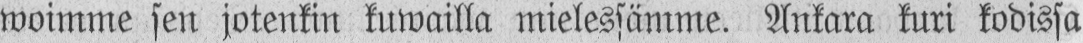woimme sen jotenkin kuwailla mielessämme. Ankara kuri kodissa
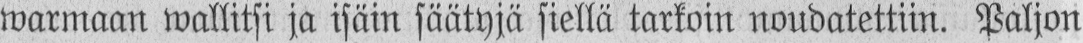warmaan wallitsi ja isäin säätyjä siellä tarkoin noudatettiin. Paljon
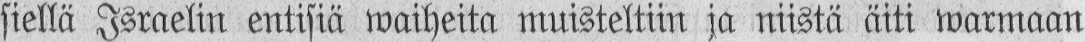siellä Israelin entisiä waiheita muisteltiin ja niistä äiti warmaan
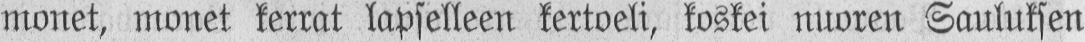monet, monet kerrat lapselleen kertoeli, koskei nuoren Sauluksen
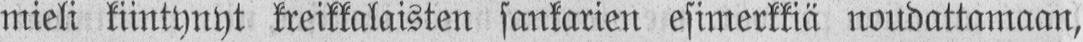mieli kiintynyt kreikkalaisten sankarien esimerkkiä noudattamaan,
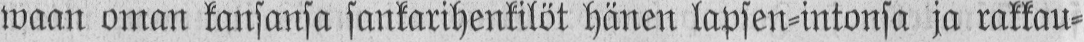waan oman kansansa sankarihenkilöt hänen lapsen-intonsa ja rakkau-
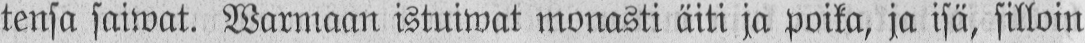tensa saiwat. Warmaan istuiwat monasti äiti ja poika, ja isä, silloin
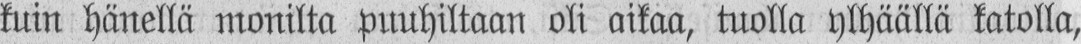kuin hänellä monilta puuhiltaan oli aikaa, tuolla ylhäällä katolla,
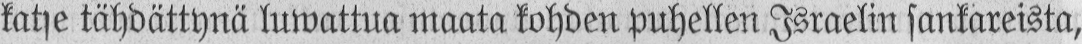katse tähdättynä luwattua maata kohden puhellen Israelin sankareista,
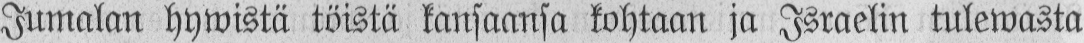Jumalan hywistä töistä kansaansa kohtaan ja Israelin tulewasta
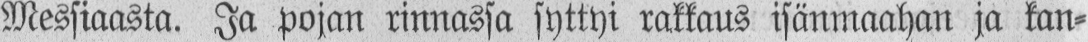Messiaasta. Ja pojan rinnassa syttyi rakkaus isänmaahan ja kan-
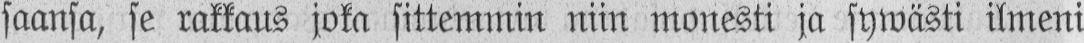saansa, se rakkaus joka sittemmin niin monesti ja sywästi ilmeni
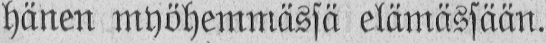hänen myöhemmässä elämässään.
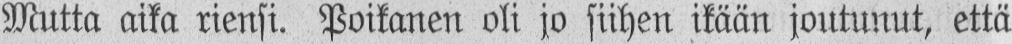Mutta aika riensi. Poikanen oli jo siihen ikään joutunut, että
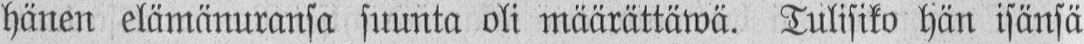hänen elämänuransa suunta oli määrättäwä. Tulisiko hän isänsä
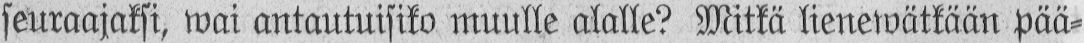seuraajaksi, wai antautuisiko muulle alalle? Mitkä lienewätkään pää-
